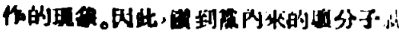作的現象。因此，鑽到黨內來的壞分子就
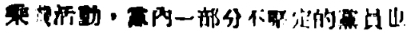乘機活動，黨內一部分不堅定的黨員也
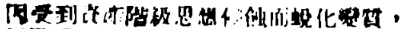因受到資產階級思想侵蝕而蛻化變質，
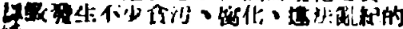以致發生不少貪污、腐化、違法亂紀的
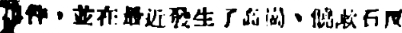事件，並在最近發生了高崗、饒漱石反
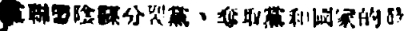黨聯盟陰謀分裂黨、奪取黨和國家的最
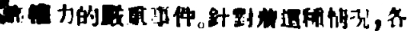高權力的嚴重事件。針對着這種情況，各
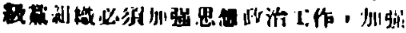級黨組織必須加強思想政治工作，加強
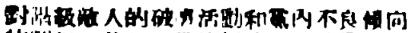對階級敵人的破壞活動和黨內不良傾向
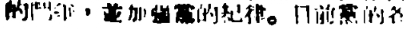的鬥爭，並加強黨的紀律。目前黨的各
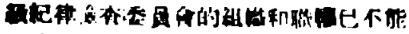級紀律檢查委員會的組織和職權已不能
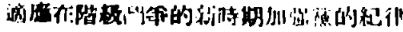適應在階級鬥爭的新時期加強黨的紀律
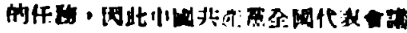的任務，因此中國共產黨全國代表會議
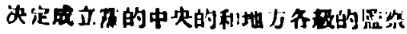決定成立黨的中央的和地方各級的監察
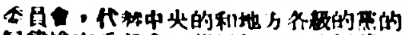委員會，代替中央的和地方各級的黨的
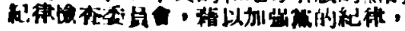紀律監察委員會，藉以加強黨的紀律，
